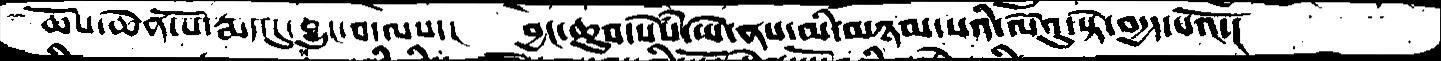ཆོས་ཆེན་པོ་རྨད་དུ་བྱུང་བ་ལས་།  བྱང་ཆུབ་སེསཾ་ཡེ་ནས་མི་མཉམ་པའི་ལེའུ་སྟེ་བདྱད་པའོ་།
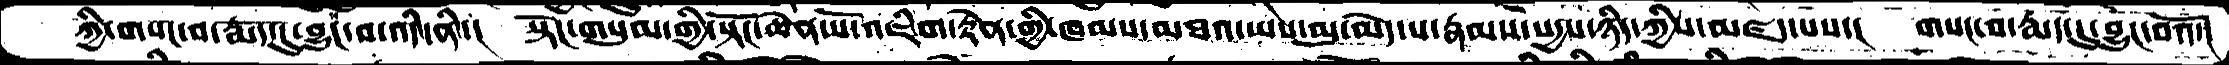ཀྱི་གསང་བ་རྨད་དུ་བྱུང་བ་འདི་ནི་།  སྟོང་གསུམ་གྱི་སྟོང་ཆེན་པོ་འཇིག་རྟེན་གྱི་ཁམས་མཐའ་ཡས་མུ་མེད་པ་རྣམས་སདྱས་ཉིད་ཀྱིས་མཛད་པས་།  གསང་བ་རྨད་དུ་བྱུང་བའོ་།
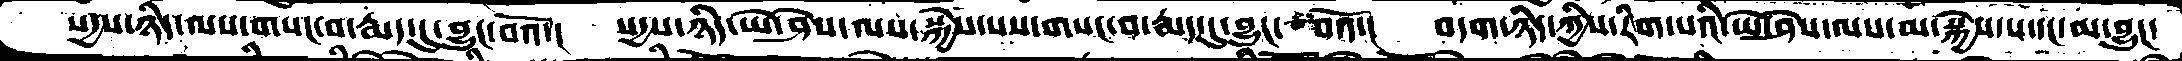སདྱས་ཉིད་ལས་གསང་བ་རྨད་དུ་བྱུང་བའོ་།  སདྱས་ཉིད་ཡེ་ཤེས་ལས་སྐྱེས་པས་གསང་བ་རྨད་དུ་བྱུང་བའོ་།  བདག་ཉིད་ཀྱིས་རིག་པའི་ཡེ་ཤེས་ལས་མ་སྐྱེས་པ་དང་མ་བྱུང་
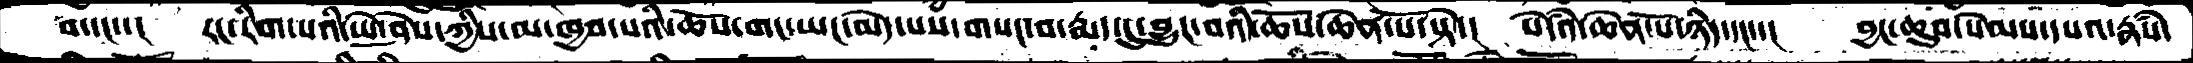བ་དང་་།  རང་རིག་པའི་ཡེ་ཤེས་ཀྱིས་མ་ཁྱབ་པའི་ཆོས་གང་ཡང་མེད་པས་གསང་བ་རྨད་དུ་བྱུང་བའི་ཆོས་ཆེན་པོ་སྟེ་།  སེདཾའ་ཆེན་པོ་ཉིད་དང་་།  བྱང་ཆུབ་སེམས་དཔའ་རྣཾས་
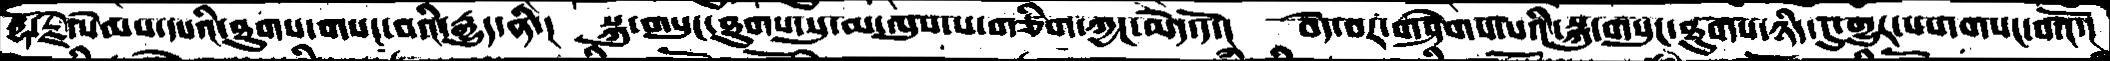རྡོ་རྗེ་སེམས་དཔའི་ཐུགས་གསང་བའི་རྒྱུད་ནི་། སྐུ་གསུང་ཐུགས་སུ་མ་ལུས་པ་གཅིག་ཀྱང་མེད་དོ་།  བདེ་བར་གཤེགས་པའི་སྐུ་གསུང་ཐུགས་ཉིད་དུ་གྱུར་པས་གསང་བའོ་།
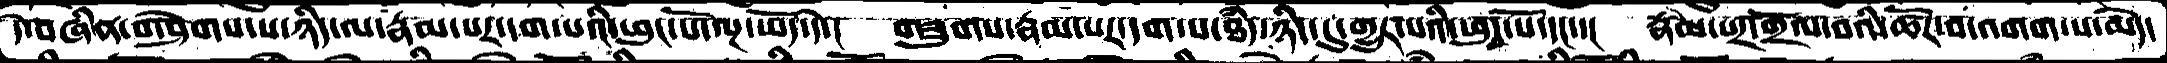དེ་བཞིན་གཤེགས་པ་ཉིད་ལ་རྣམ་པར་དག་པའི་ཕུང་པོ་ལྔ་ཡོད་དེ་།  གཟུགས་རྣམ་པར་དག་པ་ཐཾད་ཉིད་དུ་གྱུར་པའི་ཕུང་པོ་དང་།  རྣམ་པར་གྲོལ་བའི་ཚོར་བ་འགག་པ་མེད་
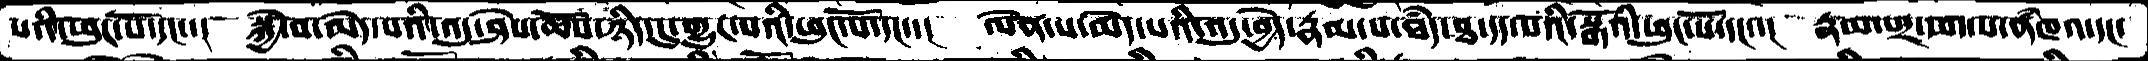པའི་ཕུང་པོ་དང་།  སྐྱེ་བ་མེད་པའི་འདུ་ཤེས་ཆོས་ཉིད་དུ་གྱུར་པའི་ཕུང་པོ་དང་།  ལེན་པ་མེད་པའི་འདུ་བྱེད་རྣམ་པ་ཐཾད་ཐ་དད་པའི་སྒོའི་ཕུང་པོ་དང་།  རྣམ་པར་དག་པ་ནཁཾའ་དང་
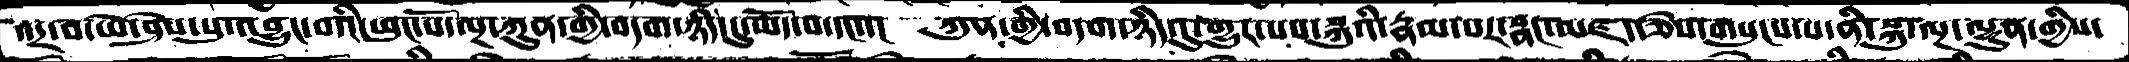འདྲ་བ་ཡེ་ཤེས་སུ་འབྱུང་བའི་ཕུང་པོ་ལྔ་ཀུན་གྱི་བདག་ཉིད་དུ་ཡོད་པ་དང་།  ཀུན་གྱི་བདག་ཉིད་དུ་གྱུར་པས་སྐུའི་རྣམ་པར་སྣང་མཛད་ཅེས་གསུངས་པ་ནི་སྐུ་ལྔ་ལྷུན་གྱིས་
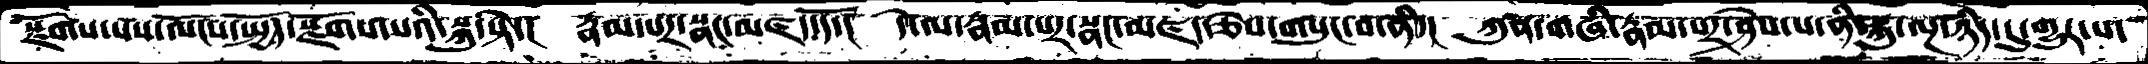སྫོགས་པས་ལོངས་སྤྱོད་སྫོགས་པའི་སྐུ་སྟེ་།   རྣམ་པར་སྣང་མཛད་དོ་།  དེ་ལ་རྣམ་པར་སྣང་མཛད་ཅེས་གསུང་བ་ནི་།  ཀུན་གཞི་རྣམ་པར་ཤེས་པ་ནི་སྐུ་ལྔ་ཉིད་དུ་གྱུར་པ་
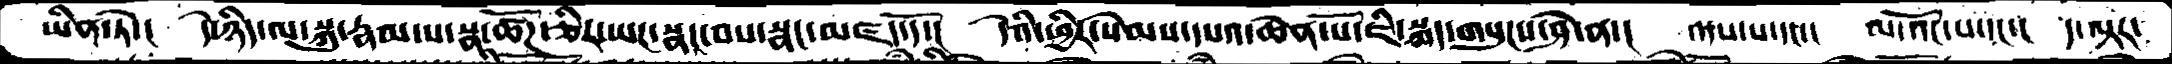ཡིན་ཏེ་།  དེ་ཉིད་ལ་སྐུ་རྣམ་པ་སྣ་ཚོཌ་ཅིར་ཡང་སྣང་བས་སྣང་མཛད་དོ་།  དེའི་ཕྱིར་སེམས་དཔའ་ཆེན་པོ་ཇི་སྐད་གསུངས་ཤེ་ན་།  འདས་པ་དང་།  མ་འོང་པ་དང་།  ད་ལྟར་
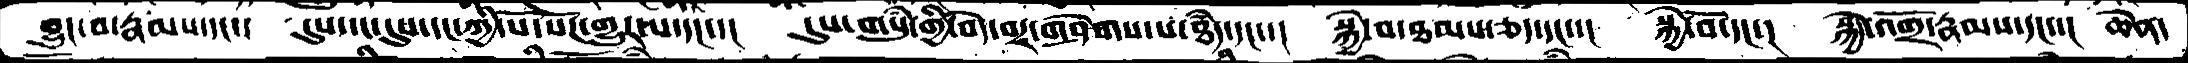བྱུང་བ་རྣམས་དང་་།  དུས་དང་དུས་དང་ཀྱི་སོ་སོཌ་གྱུར་པ་དང་་།  དུས་གསུཾ་གྱི་བདེ་བར་གཤེགས་པ་ཐཾད་དང་་།  སྐྱེ་བ་ཐམས་ཅད་དང་་།  སྐྱེ་བོ་དང་།  སྐྱེ་འགྲོ་རྣམས་དང་་། ཆེན་
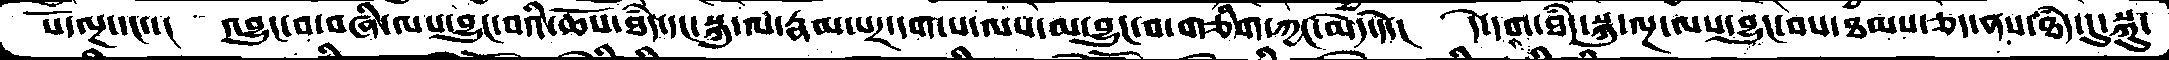པོ་ལྔ་དང་་།  འབྱུང་བ་བཞི་ལས་བྱུང་བའི་ཆོས་ཐཾད་དང་སྐུ་ལ་རྣམ་པར་དག་པ་ལས་བྱུང་བ་གཅིག་ཀྱང་མེད་དེ་།   དེ་དག་ཐཾད་སྐུ་ལྔ་ལས་བྱུང་བས་ཐམས་ཅད་ནས་ཐཾད་དུ་སྐུ་
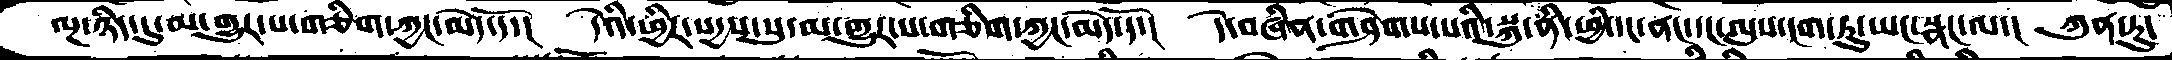ལྔ་ཉིད་དུ་མ་གྱུར་པ་གཅིག་ཀྱང་མེད་དོ་།  དེའི་ཕྱིར་སདྱས་སུ་མ་གྱུར་པ་གཅིག་ཀྱང་མེད་དོ་།   དེ་བཞིན་གཤེགས་པའི་སྐུ་ནི་ཕྱི་དང་ནང་དང་ལུས་ངག་ཏུ་ཡང་སྣང་ལ་།  ཀུན་ཏུ་
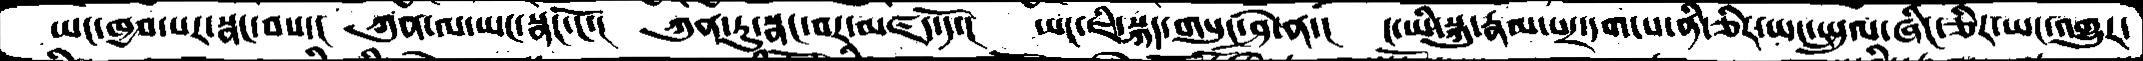ཡང་ཁྱབ་པར་སྣང་བས་།  ཀུན་ལ་ཡང་སྣང་ངོ་།  ཀུན་ཏུ་སྣང་བར་མཛད་དོ་།  ཡང་ཇི་སྐད་གསུང་ཤེ་ན་།  ང་ཡི་སྐུ་རྣམ་པར་དག་པ་ནི་ཅིར་ཡང་སྤྲུལ་ཞིང་ཅིར་ཡང་འགྱུར་
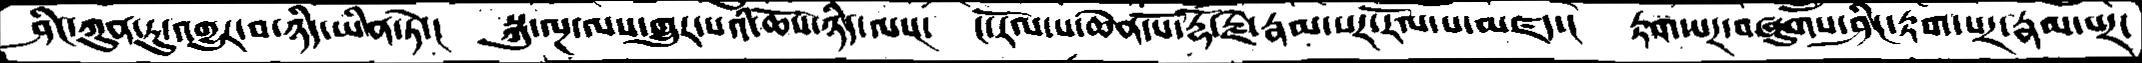ཤེང་ཀུན་ཏུ་འགྱུར་བ་ཉིད་ཡིན་ཏེ་།  སྐུ་ལྔ་ལས་གྱུར་པའི་ཆོས་ཉིད་ལས་  ང་རོལ་པ་ཆེན་པོ་རྡོ་རྗེ་རྣམ་པར་རོལ་པ་མཛད་།  རྟག་པར་བཞུགས་ཤིང་རྟག་པར་རྣམ་པར་
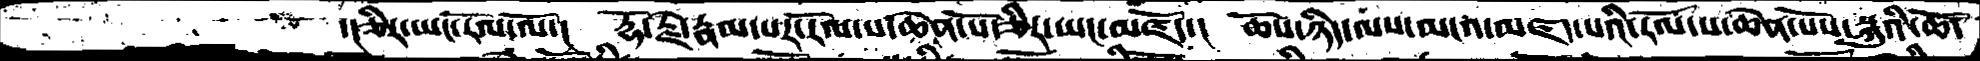་།ཅིར་ཡང་རོལ་ལོ་།  རྡོ་རྗེ་རྣམ་པར་རོལ་པ་ཆེན་པོ་ཅིར་ཡང་མཛོད་།  ཆོས་ཉིད་ལས་མངའ་མཛད་པའི་རོལ་པ་ཆེན་པོས་སྐུའི་ཆོ་
